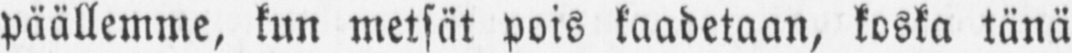päällemme, kun metsät pois kaadetaan, koska tänä
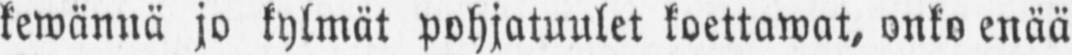kewännä jo kylmät pohjatuulet koettawat, onko enää
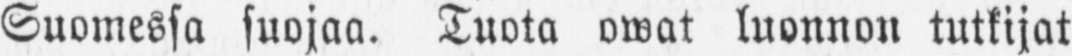Suomessa suojaa. Tuota owat luonnon tutkijat
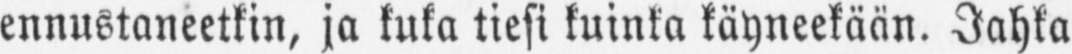ennustaneetkin, ja kuka tiesi kuinka käyneekään. Jahka
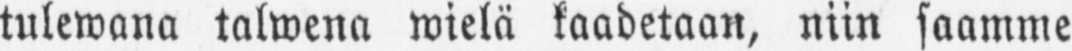tulewana talwena wielä kaadetaan, niin saamme
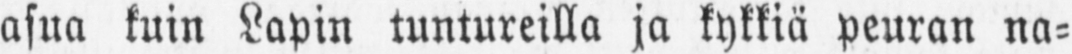asua kuin Lapin tuntureilla ja kykkiä peuran na-
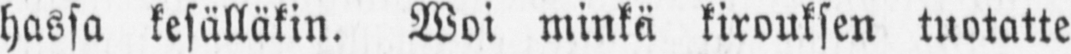hassa kesälläkin. Woi minkä kirouksen tuotatte
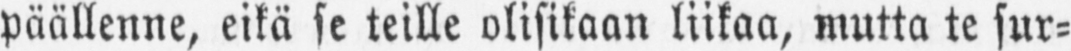päällenne, eikä se teille olisikaan liikaa, mutta te sur-
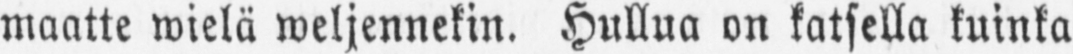maatte wielä weljennekin. Hullua on katsella kuinka
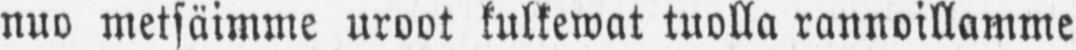nuo metsäimme uroot kulkewat tuolla rannoillamme
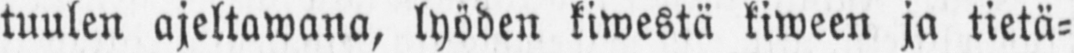tuulen ajeltawana, lyöden kiwestä kiween ja tietä-
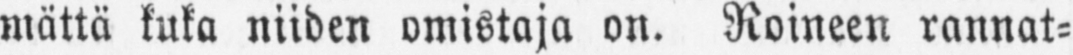mättä kuka niiden omistaja on. Roineen rannat-
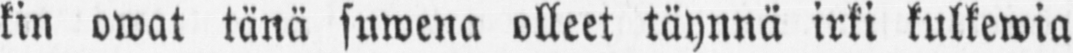kin owat tänä suwena olleet täynnä irti kulkewia
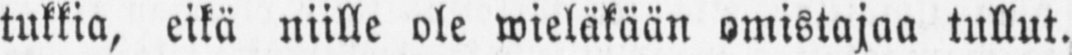tukkia, eikä niille ole wieläkään omistajaa tullut.
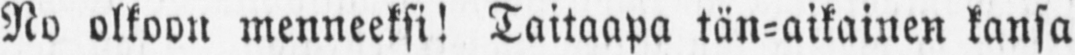No olkoon menneeksi! Taitaapa tän-aikainen kansa
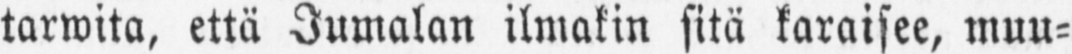tarwita, että Jumalan ilmakin sitä karaisee, muu-
